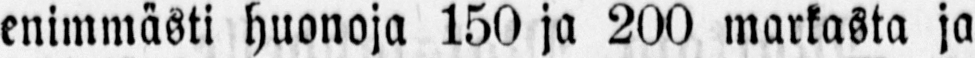enimmästi huonoja 150 ja 200 markasta ja
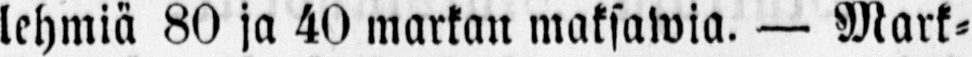lehmiä 80 ja 40 markan maksawia. — Mark-
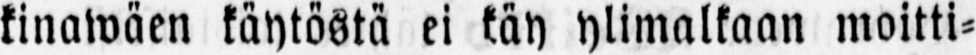kinawäen käytöstä ei käy ylimalkaan moitti-
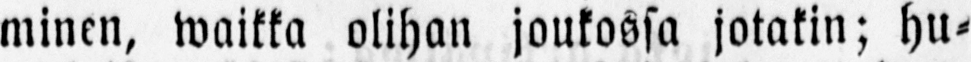minen, waikka olihan joukossa jotakin; hu-
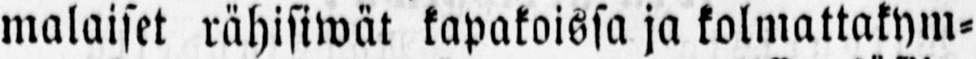malaiset rähisiwät kapakoissa ja kolmattakym-
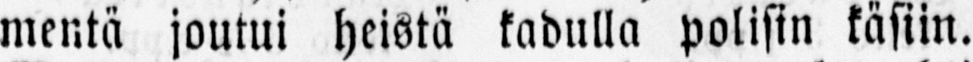mentä joutui heistä kadulla polisin käsiin.
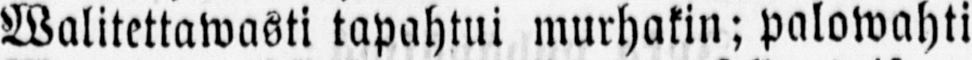Valitettawasti tapahtui murhakin; palowahti
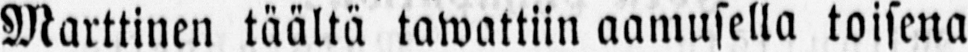Marttinen täältä tawattiin aamusella toisena
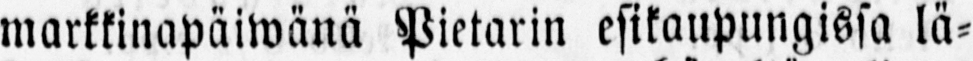markkinapäwänä Pietarin esikaupungissa lä-
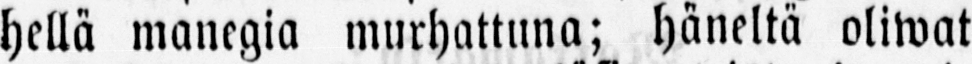hellä manegia murhattuna; häneltä oliwat
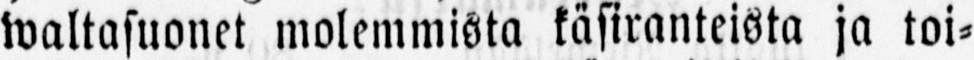waltasuonet molemmista käsiranteista ja toi-
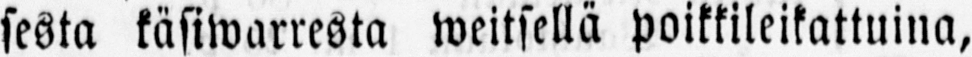sesta käsiwarresta weitsellä poikkileikattuina,
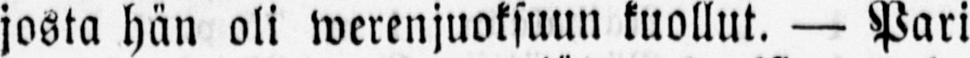josta hän oli werenjuoksuun kuollut. — Pari
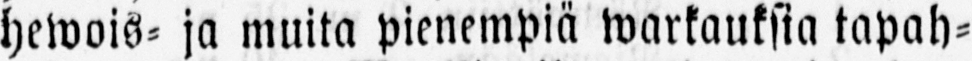hewois- ja muita pienempiä warkauksia tapah-
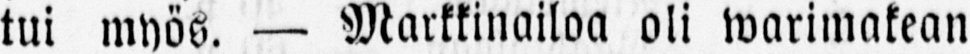tui myös. — Markkinailoa oli warimakean
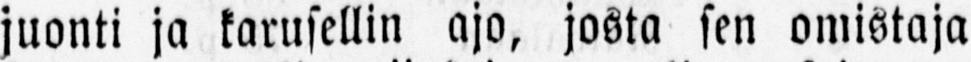juonti ja karusellin ajo, josta sen omistaja
